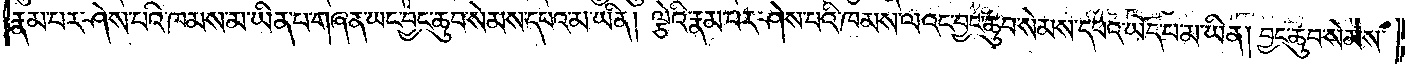རྣམ་པར་ཤེས་པའི་ཁམས་མ་ཡིན་པ་གཞན་ཡང་བྱང་ཆུབ་སེམས་དཔའ་མ་ཡིན། ལྕེའི་རྣམ་པར་ཤེས་པའི་ཁམས་ལའང་བྱང་ཆུབ་སེམས་དཔའ་ཡོད་པ་མ་ཡིན། བྱང་ཆུབ་སེམས་
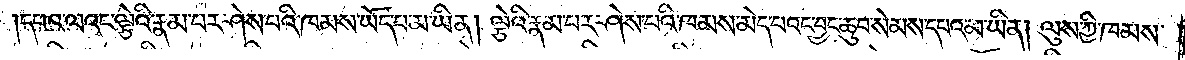དཔའ་ལའང་ལྕེའི་རྣམ་པར་ཤེས་པའི་ཁམས་ཡོད་པ་མ་ཡིན། ལྕེའི་རྣམ་པར་ཤེས་པའི་ཁམས་མེད་པའང་བྱང་ཆུབ་སེམས་དཔའ་མ་ཡིན། ལུས་ཀྱི་ཁམས་
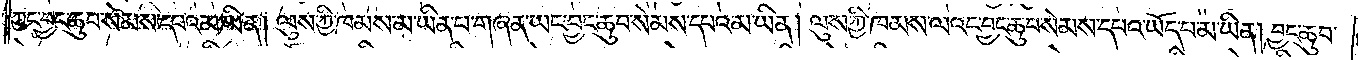ཀྱང་བྱང་ཆུབ་སེམས་དཔའ་མ་ཡིན། ལུས་ཀྱི་ཁམས་མ་ཡིན་པ་གཞན་ཡང་བྱང་ཆུབ་སེམས་དཔའ་མ་ཡིན། ལུས་ཀྱི་ཁམས་ལའང་བྱང་ཆུབ་སེམས་དཔའ་ཡོད་པ་མ་ཡིན། བྱང་ཆུབ་
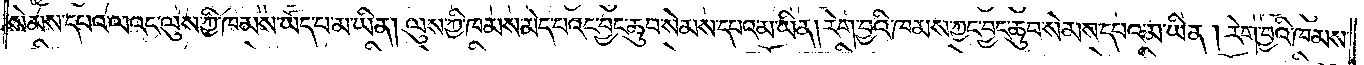སེམས་དཔའ་ལའང་ལུས་ཀྱི་ཁམས་ཡོད་པ་མ་ཡིན། ལུས་ཀྱི་ཁམས་མེད་པའང་བྱང་ཆུབ་སེམས་དཔའ་མ་ཡིན། རེག་བྱའི་ཁམས་ཀྱང་བྱང་ཆུབ་སེམས་དཔའ་མ་ཡིན། རེག་བྱའི་ཁམས་
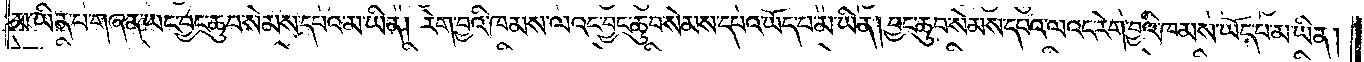མ་ཡིན་པ་གཞན་ཡང་བྱང་ཆུབ་སེམས་དཔའ་མ་ཡིན། རེག་བྱའི་ཁམས་ལའང་བྱང་ཆུབ་སེམས་དཔའ་ཡོད་པ་མ་ཡིན། བྱང་ཆུབ་སེམས་དཔའ་ལའང་རེག་བྱའི་ཁམས་ཡོད་པ་མ་ཡིན།
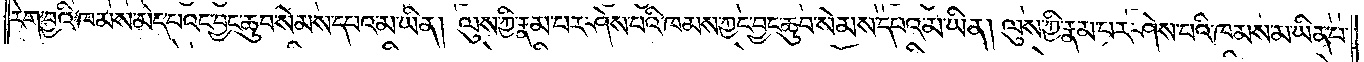རེག་བྱའི་ཁམས་མེད་པའང་བྱང་ཆུབ་སེམས་དཔའ་མ་ཡིན། ལུས་ཀྱི་རྣམ་པར་ཤེས་པའི་ཁམས་ཀྱང་བྱང་ཆུབ་སེམས་དཔའ་མ་ཡིན། ལུས་ཀྱི་རྣམ་པར་ཤེས་པའི་ཁམས་མ་ཡིན་པ་
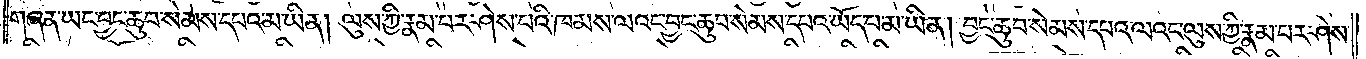གཞན་ཡང་བྱང་ཆུབ་སེམས་དཔའ་མ་ཡིན། ལུས་ཀྱི་རྣམ་པར་ཤེས་པའི་ཁམས་ལའང་བྱང་ཆུབ་སེམས་དཔའ་ཡོད་པ་མ་ཡིན། བྱང་ཆུབ་སེམས་དཔའ་ལའང་ལུས་ཀྱི་རྣམ་པར་ཤེས་
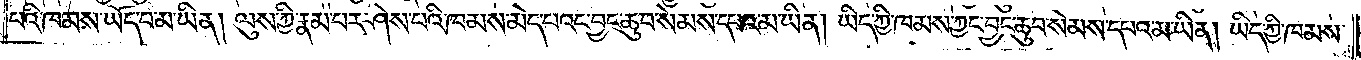པའི་ཁམས་ཡོད་པ་མ་ཡིན། ལུས་ཀྱི་རྣམ་པར་ཤེས་པའི་ཁམས་མེད་པའང་བྱང་ཆུབ་སེམས་དཔའ་མ་ཡིན། ཡིད་ཀྱི་ཁམས་ཀྱང་བྱང་ཆུབ་སེམས་དཔའ་མ་ཡིན། ཡིད་ཀྱི་ཁམས་
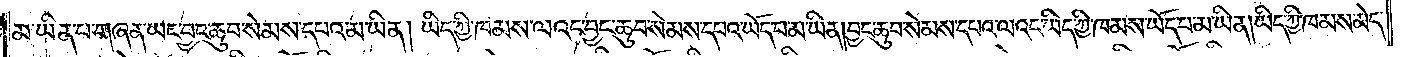མ་ཡིན་པ་གཞན་ཡང་བྱང་ཆུབ་སེམས་དཔའ་མ་ཡིན། ཡིད་ཀྱི་ཁམས་ལའང་བྱང་ཆུབ་སེམས་དཔའ་ཡོད་པ་མ་ཡིན། བྱང་ཆུབ་སེམས་དཔའ་ལའང་ཡིད་ཀྱི་ཁམས་ཡོད་པ་མ་ཡིན། ཡིད་ཀྱི་ཁམས་མེད་
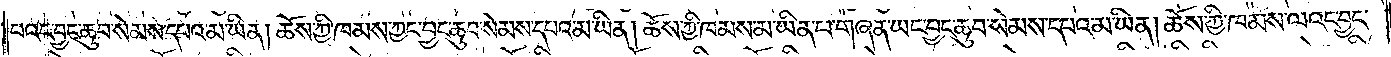པའང་བྱང་ཆུབ་སེམས་དཔའ་མ་ཡིན། ཆོས་ཀྱི་ཁམས་ཀྱང་བྱང་ཆུབ་སེམས་དཔའ་མ་ཡིན། ཆོས་ཀྱི་ཁམས་མ་ཡིན་པ་གཞན་ཡང་བྱང་ཆུབ་སེམས་དཔའ་མ་ཡིན། ཆོས་ཀྱི་ཁམས་ལའང་བྱང་
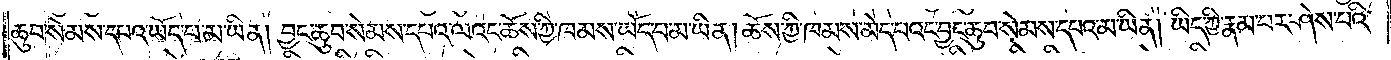ཆུབ་སེམས་དཔའ་ཡོད་པ་མ་ཡིན། བྱང་ཆུབ་སེམས་དཔའ་ལའང་ཆོས་ཀྱི་ཁམས་ཡོད་པ་མ་ཡིན། ཆོས་ཀྱི་ཁམས་མེད་པའང་བྱང་ཆུབ་སེམས་དཔའ་མ་ཡིན། ཡིད་ཀྱི་རྣམ་པར་ཤེས་པའི་
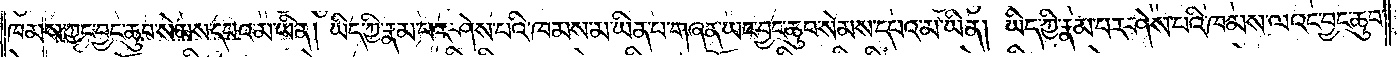ཁམས་ཀྱང་བྱང་ཆུབ་སེམས་དཔའ་མ་ཡིན། ཡིད་ཀྱི་རྣམ་པར་ཤེས་པའི་ཁམས་མ་ཡིན་པ་གཞན་ཡང་བྱང་ཆུབ་སེམས་དཔའ་མ་ཡིན། ཡིད་ཀྱི་རྣམ་པར་ཤེས་པའི་ཁམས་ལའང་བྱང་ཆུབ་
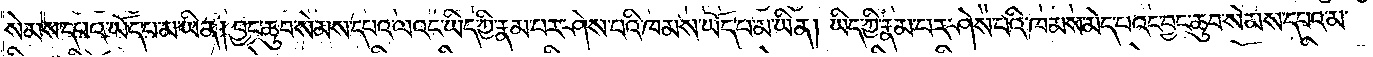སེམས་དཔའ་ཡོད་པ་མ་ཡིན། བྱང་ཆུབ་སེམས་དཔའ་ལའང་ཡིད་ཀྱི་རྣམ་པར་ཤེས་པའི་ཁམས་ཡོད་པ་མ་ཡིན། ཡིད་ཀྱི་རྣམ་པར་ཤེས་པའི་ཁམས་མེད་པའང་བྱང་ཆུབ་སེམས་དཔའ་མ་
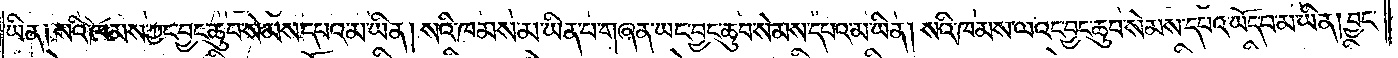ཡིན༑ སའི་ཁམས་ཀྱང་བྱང་ཆུབ་སེམས་དཔའ་མ་ཡིན། སའི་ཁམས་མ་ཡིན་པ་གཞན་ཡང་བྱང་ཆུབ་སེམས་དཔའ་མ་ཡིན། སའི་ཁམས་ལའང་བྱང་ཆུབ་སེམས་དཔའ་ཡོད་པ་མ་ཡིན། བྱང་
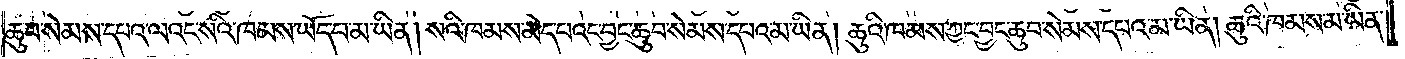ཆུབ་སེམས་དཔའ་ལའང་སའི་ཁམས་ཡོད་པ་མ་ཡིན། སའི་ཁམས་མེད་པའང་བྱང་ཆུབ་སེམས་དཔའ་མ་ཡིན། ཆུའི་ཁམས་ཀྱང་བྱང་ཆུབ་སེམས་དཔའ་མ་ཡིན། ཆུའི་ཁམས་མ་ཡིན་
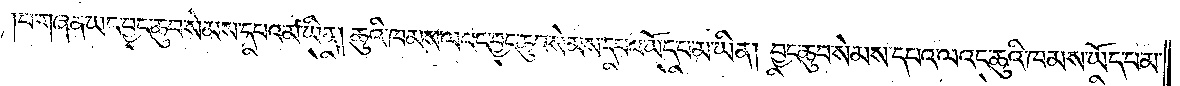པ་གཞན་ཡང་བྱང་ཆུབ་སེམས་དཔའ་མ་ཡིན། ཆུའི་ཁམས་ལའང་བྱང་ཆུབ་སེམས་དཔའ་ཡོད་པ་མ་ཡིན། བྱང་ཆུབ་སེམས་དཔའ་ལའང་ཆུའི་ཁམས་ཡོད་པ་མ་
